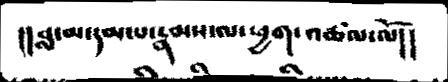།།བླ་མ་དམ་པ་རྣམས་ལ་ཕྱག་འཚལ་ལོ།།
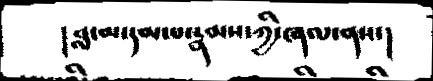།བླ་མ་དམ་པ་རྣམས་ཀྱི་ཞལ་ནས་།
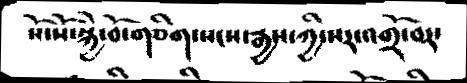སོ་སོ་སྐྱེ་བོ་གཅིག་སངས་རྒྱས་ཀྱི་སར་འགྲོ་བར་
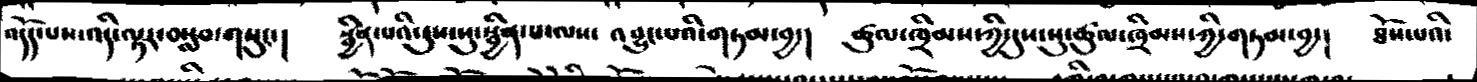འདོད་པས་འདི་ལྟར་བསླབ་གསུང་།  སྦྱིན་པའི་དུས་སུ་སྦྱིན་པ་ལས་ འབྱུང་པའི་གཏམ་བྱ་།  ཚུལ་ཁྲིམས་ཀྱི་དུས་སུ་ཚུལ་ཁྲིམས་ཀྱི་གཏམ་བྱ་།  ཐོས་པའི་
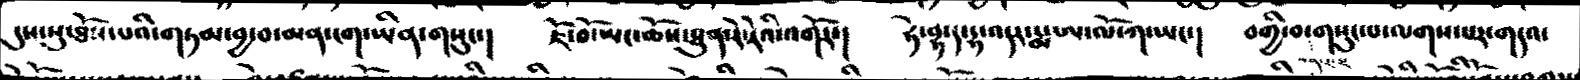དུས་སུ་ཐོས་པའི་གཏམ་བྱ་བ་མན་ངག་ཡིན་གསུང་།  ཇོ་བོ་ཡང་ཆོས་ཐུན་རེ་རེའི་འགོར་།  ཧེ་བྷ་ད་དྷ་འདར་རྨ་ཨ་ལོ་ཀ་ཡང་།  བགྱི་བ་གསུང་པ་ལགས་པར་གདའ་
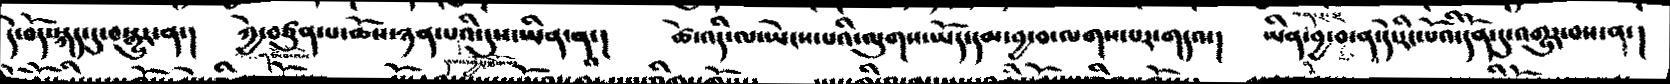དེ་བོད་སྐད་དུ་བསྒྱུར་ན་།  ཀྱེ་བཙུན་པ་ཆོས་ཉན་པའི་དུས་ཡིན་ནཱ་།  ཚེ་འདི་ལ་ཡེངས་པའི་ལུགས་ཡོད་དམ་བྱ་བ་ལགས་པར་གདའ་།  ཡིན་བྱ་བ་ན་དེ་རིང་པོའི་དོན་དུ་འགྱུར་བས་ན་།
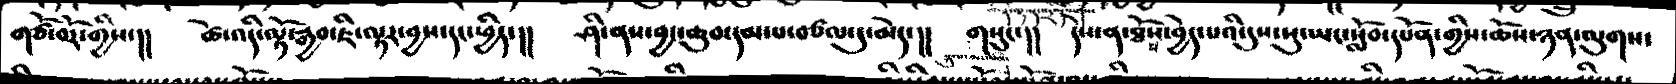གཙོ་བོར་གྱིས་།།  ཚེ་འདི་ལྟོ་རྒྱབ་ཇི་ལྟར་བྱས་དང་ཕྱིར་།།   ཤི་ནས་བྱང་ཆུབ་དམ་པ་བཙལ་དུ་མེད་།།    གསུང་།། དེས་ན་ཐོས་པ་བྱེད་པའི་དུས་སུ་ཡང་སློབ་དཔོན་གྱིས་ཆོས་ཉན་ལུགས་
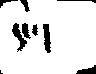དང་།
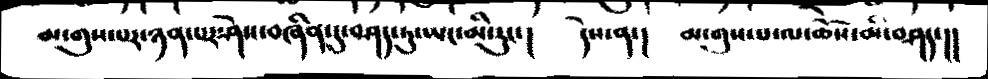མ་གུས་པར་ཉན་པར་ཤེས་བཞིན་དུ་བཤད་ཏུ་ཡང་མི་རུང་།   དེས་ན་།  མ་གུས་པ་ལ་ཆོས་མི་བཤད་།།
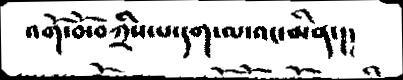འགོ་བོ་བཀྲིས་པ་དག་ལ་འང་མིན་།།
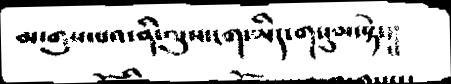མ་གུས་པའ་ནི་ལུས་ངག་ཡིད་གསུམ་སྟེ་།།
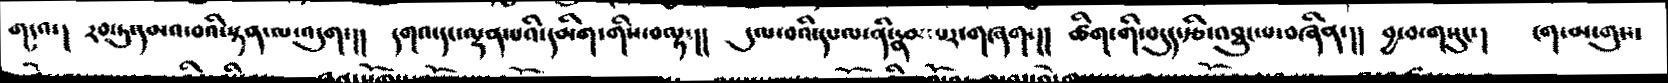གདའ་།  རབ་ཏུ་དམའ་བའི་སྟན་ལ་འདུག་།།  དགའ་དང་ལྡན་པའི་དམིག་གིས་བལྟ་།།  དུལ་བའི་དཔལ་ནི་རྣམ་པར་གཞག་།།  ཚིག་གི་བདུད་རྩི་འཐུང་པ་བཞིན་།།  བྱ་བ་གསུང་།  ངག་མ་གུས་
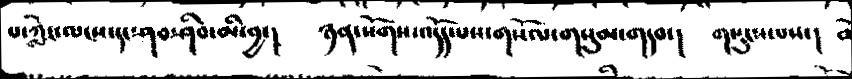པ་ཀླེང་ལངས་དང་ཤབ་ཤིབ་མི་བྱ་། ཉན་སོགས་འདོད་པས་གསོལ་གསུམ་གདབ་།  གསུངས་པས་།
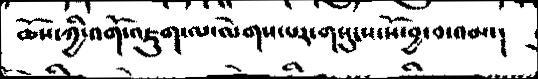ཆོས་ཀྱི་འགོ་འཇུག་ལེགས་པར་གསུངས་སོ་བྱ་འམ་།
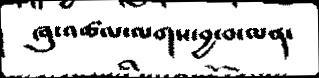ཞུ་འཚལ་ལགས་བྱ་བ་ལན་
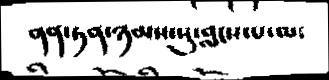ནན་ཏན་ཉམས་སུ་བླངས་པ་ལ་
